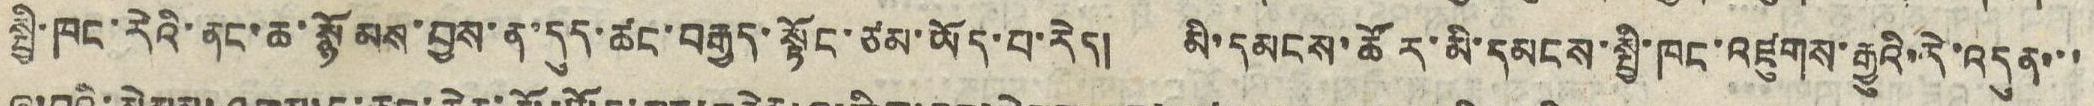སྤྱི་ཁང་རེའི་ནང་ཆ་སྙོམས་བྱས་ན་དུད་ཚང་བརྒྱད་སྟོང་ཙམ་ཡོད་པ་རེད། མི་དམངས་ཚོར་མི་དམངས་སྤྱི་ཁང་འཛུགས་རྒྱུའི་རེ་འདུན་་་
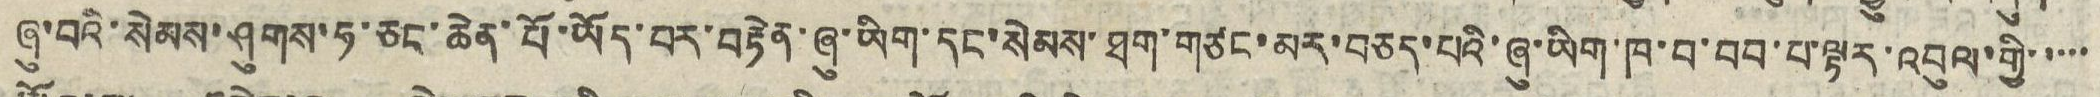ཞུ་བའི་སེམས་ཤུགས་ཧ་ཅང་ཆེན་པོ་ཡོད་པར་བརྟེན་ཞུ་ཡིག་དང་སེམས་ཐག་གཙང་མར་བཅད་པའི་ཞུ་ཡིག་ཁ་བ་བབ་པ་ལྟར་འབུལ་གྱི་་་་་
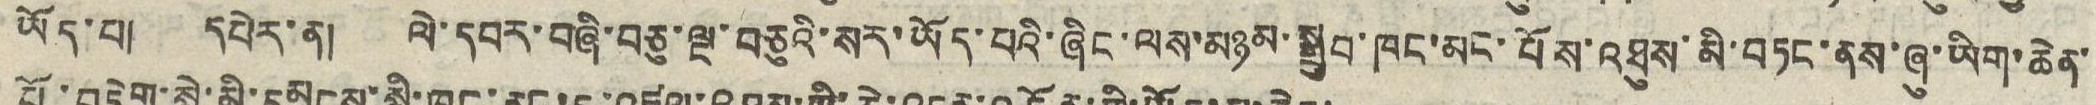ཡོད་པ། དཔེར་ན། ལེ་དབར་བཞི་བཅུ་ལྔ་བཅུའི་སར་ཡོད་པའི་ཞིང་ལས་མཉམ་སྒྲུབ་ཁང་མང་པོས་འཐུས་མི་བཏང་ནས་ཞུ་ཡིག་ཆེན་
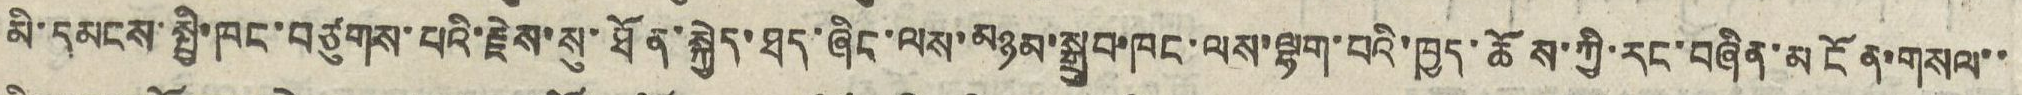མི་དམངས་སྤྱི་ཁང་བཙུགས་པའི་རྗེས་སུ་ཐོན་སྐྱེད་ཐད་ཞིང་ལས་མཉམ་སྒྲུབ་ཁང་ལས་ལྷག་པའི་ཁྱད་ཆོས་ཀྱི་རང་བཞིན་མངོན་གསལ་་
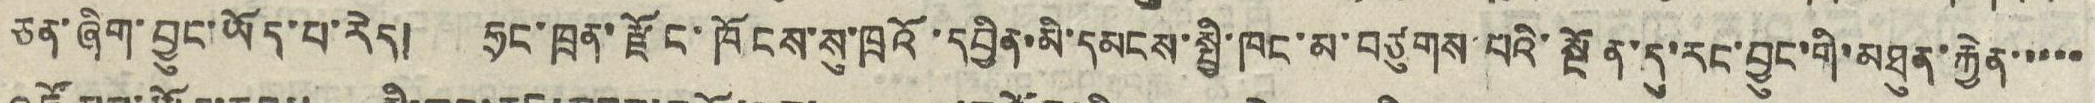ཅན་ཞིག་བྱུང་ཡོད་པ་རེད། ཧྲང་ཁྲན་རྫོང་ཁོངས་སུ་ཁྲའོ་དབྱིན་མི་དམངས་སྤྱི་ཁང་མ་བཙུགས་པའི་སྔོན་དུ་རང་བྱུང་གི་མཐུན་རྐྱེན་་་་་
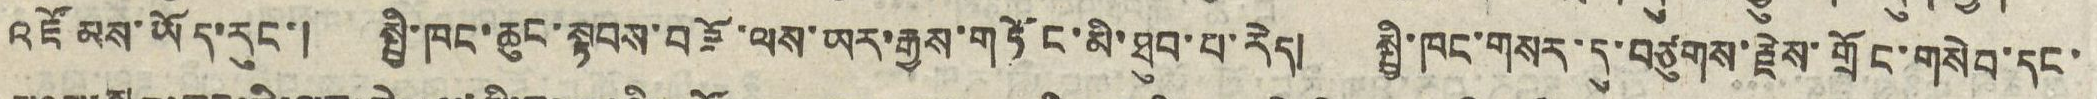འཛོམས་ཡོད་རུང་། སྤྱི་ཁང་ཆུང་སྟབས་བཟོ་ལས་ཡར་རྒྱས་གཏོང་མི་ཐུབ་པ་རེད། སྤྱི་ཁང་གསར་དུ་བཙུགས་རྗེས་གྲོང་གསེབ་དང་
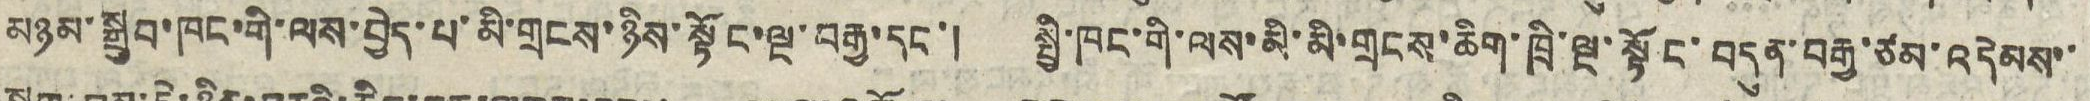མཉམ་སྒྲུབ་ཁང་གི་ལས་བྱེད་པ་མི་གྲངས་ཉིས་སྟོང་ལྔ་བརྒྱ་དང་། སྤྱི་ཁང་གི་ལས་མི་མི་གྲངས་ཆིག་ཁྲི་ལྔ་སྟོང་བདུན་བརྒྱ་ཙམ་འདེམས་་
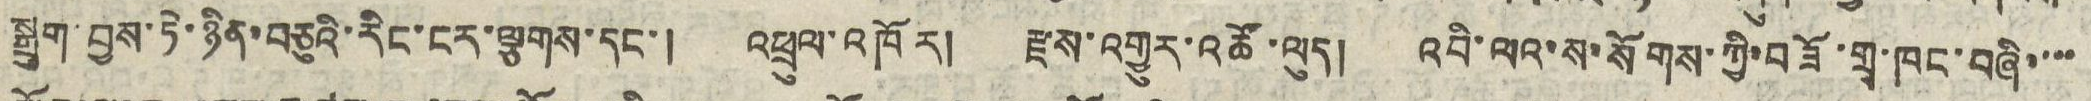སྒྲུག་བྱས་ཏེ་ཉིན་བཅུའི་རིང་ངར་ལྕགས་དང་། འཕྲུལ་འཁོར། རྫས་འགྱུར་འཚོ་ལུད། འབི་ལའ་ས་སོགས་ཀྱི་བཟོ་གྲྭ་ཁང་བཞི་་་་
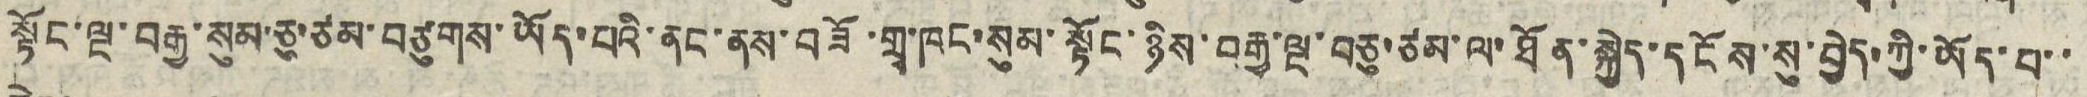སྟོང་ལྔ་བརྒྱ་སུམ་ཅུ་ཙམ་བཙུགས་ཡོད་པའི་ནང་ནས་བཟོ་གྲྭ་ཁང་སུམ་སྟོང་ཉིས་བརྒྱ་ལྔ་བཅུ་ཙམ་ལ་ཐོན་སྐྱེད་དངོས་སུ་བྱེད་ཀྱི་ཡོད་པ་་
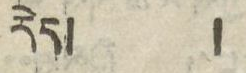རེད།  །
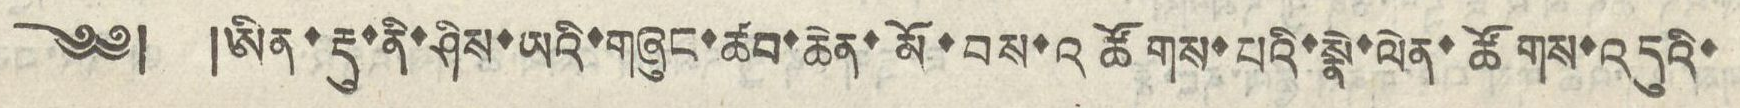༄༅། །ཨིན་རྡུ་ནི་ཤིས་ཡའི་གཞུང་ཚབ་ཆེན་མོ་བས་འཚོགས་པའི་སྣེ་ལེན་ཚོགས་འདུའི་
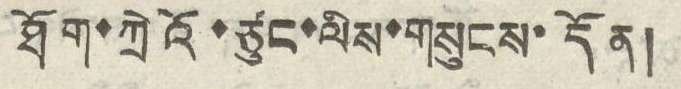ཐོག་ཀྲེའོ་ཙུང་ལིས་གསུངས་དོན།
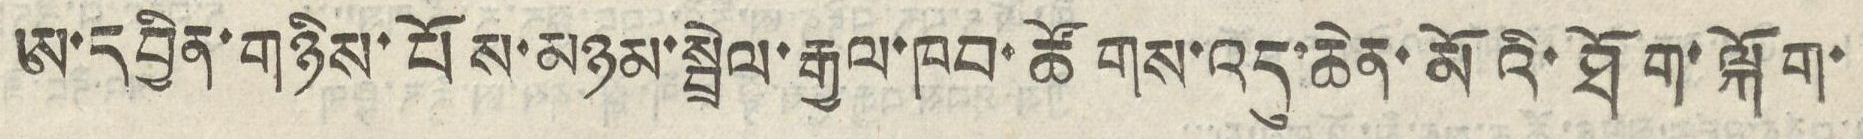ཨ་དབྱིན་གཉིས་པོས་མཉམ་སྦྲེལ་རྒྱལ་ཁབ་ཚོགས་འདུ་ཆེན་མོའི་ཐོག་ལྐོག་
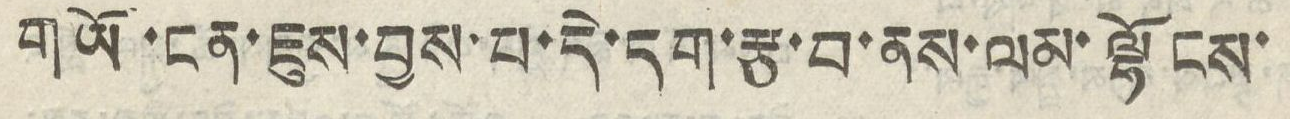གཡོ་ངན་ཇུས་བྱས་པ་དེ་དག་རྩ་བ་ནས་ལམ་ལྷོངས་
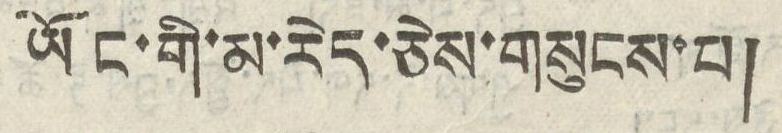ཡོང་གི་མ་རེད་ཅེས་གསུངས་པ།
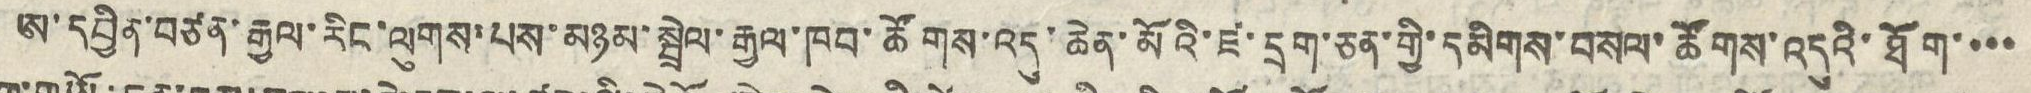ཨ་དབྱིན་བཙན་རྒྱལ་རིང་ལུགས་པས་མཉམ་སྦྲེལ་རྒྱལ་ཁབ་ཚོགས་འདུ་ཆེན་མོའི་ཛ་དྲག་ཅན་གྱི་དམིགས་བསལ་ཚོགས་འདུའི་ཐོག་་་་
